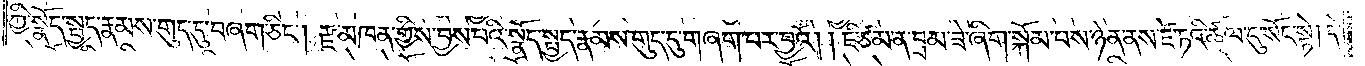ཀྱི་སྣོད་སྤྱད་རྣམས་གུད་དུ་བཞག་ཅིང༌། རྫ་མཁན་གྱིས་བྱས་པའི་སྣོད་སྤྱད་རྣམས་གུད་དུ་གཞག་པར་བྱའོ། །ཇི་ཙམ་ན་བྲམ་ཟེ་ཞིག་སྐོམ་པས་ཉེན་ནས་ཛེ་ཏའི་ཚལ་དུ་སོང་སྟེ། དེ་
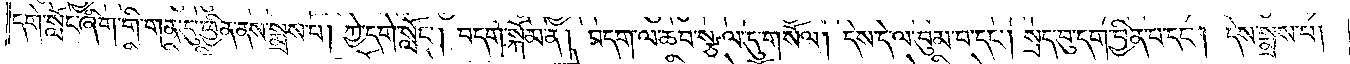དགེ་སློང་ཞིག་གི་གན་དུ་ཕྱིན་ནས་སྨྲས་པ། ཀྱེ་དགེ་སློང༌། བདག་སྐོམ་ན། བདག་ལ་ཆབ་སྩལ་དུ་གསོལ། དེས་དེ་ལ་བུམ་པ་དང༌། སྲད་བུ་དག་བྱིན་པ་དང༌། དེས་སྨྲས་པ།
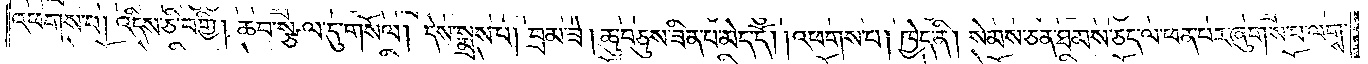འཕགས་པ། འདིས་ཅི་བགྱི། ཆབ་སྩལ་དུ་གསོལ། དེས་སྨྲས་པ། བྲམ་ཟེ། ཆུ་བཅུས་ཟིན་པ་མེད་དོ། །འཕགས་པ། ཁྱེད་ནི། སེམས་ཅན་ཐམས་ཅད་ལ་ཕན་པར་ཞུགས་པ་ལགས་
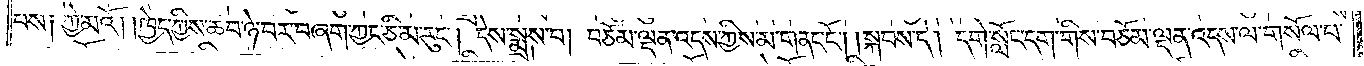པས། ཀྱེ་མའོ། །ཁྱེད་ཀྱིས་ཆབ་ཉེ་བར་བཞག་ཀྱང་ཅི་མ་རུང༌། དེས་སྨྲས་པ། བཅོམ་ལྡན་འདས་ཀྱིས་མ་གནང་ངོ༌། །སྐབས་དེ། དགེ་སློང་དག་གིས་བཅོམ་ལྡན་འདས་ལ་གསོལ་པ་
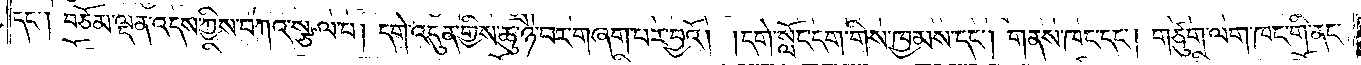དང༌། བཅོམ་ལྡན་འདས་ཀྱིས་བཀའ་སྩལ་པ། དགེ་འདུན་གྱིས་ཆུ་ཉེ་བར་གཞག་པར་བྱའོ། །དགེ་སློང་དག་གིས་ཁྱམས་དང༌། གནས་ཁང་དང༌། གཙུག་ལག་ཁང་གི་ནང་
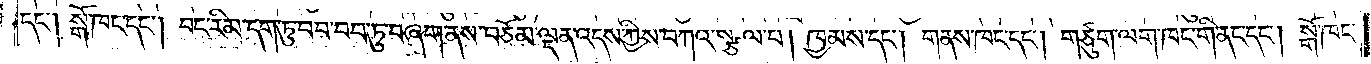དང༌། སྒོ་ཁང་དང༌། བང་རིམ་དག་ཏུ་བབ་བབ་ཏུ་བཞག་ནས་བཅོམ་ལྡན་འདས་ཀྱིས་བཀའ་སྩལ་པ། ཁྱམས་དང༌། གནས་ཁང་དང༌། གཙུག་ལག་ཁང་གི་ནང་དང༌། སྒོ་ཁང་
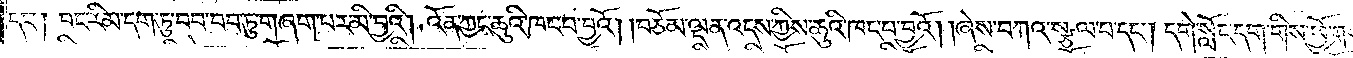དང༌། བང་རིམ་དག་ཏུ་བབ་བབ་ཏུ་གཞག་པར་མི་བྱའི། འོན་ཀྱང་ཆུའི་ཁང་པ་བྱའོ། །བཅོམ་ལྡན་འདས་ཀྱིས་ཆུའི་ཁང་པ་བྱའོ། །ཞེས་བཀའ་སྩལ་པ་དང༌། དགེ་སློང་དག་གིས་ཕྱོགས་
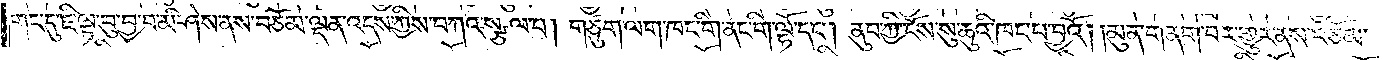གང་དུ་ཇི་ལྟ་བུ་བྱ་བ་མི་ཤེས་ནས་བཅོམ་ལྡན་འདས་ཀྱིས་བཀའ་སྩལ་པ། གཙུག་ལག་ཁང་གི་ནང་གི་ལྷོ་དང༌། ནུབ་ཀྱི་ངོས་སུ་ཆུའི་ཁང་པ་བྱའོ། །མུན་གནག་པར་གྱུར་ནས་བཅོམ་
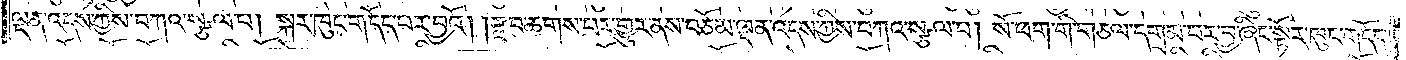ལྡན་འདས་ཀྱིས་བཀའ་སྩལ་པ། སྐར་ཁུང་གདོད་པར་བྱའོ། །རྫབ་ཆགས་པར་གྱུར་ནས་བཅོམ་ལྡན་འདས་ཀྱིས་བཀའ་སྩལ་པ། སོ་ཕག་གི་གཅལ་དགྲམ་པར་བྱ་ཞིང་སྟོར་ཁུང་གདོད་
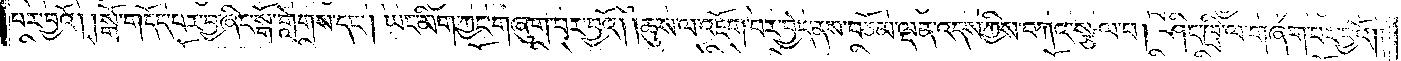བར་བྱའོ། །སྒོ་གདོད་པར་བྱ་ཞིང་སྒོ་གླེགས་དང༌། ཡང་མིག་ཀྱང་གཞུག་པར་བྱའོ། །ཆུ་ས་ལ་འཇོག་པར་བྱེད་ནས་བཅོམ་ལྡན་འདས་ཀྱིས་བཀའ་སྩལ་པ། ཤིང་ཁྲི་ལ་གཞག་པར་བྱའོ། །
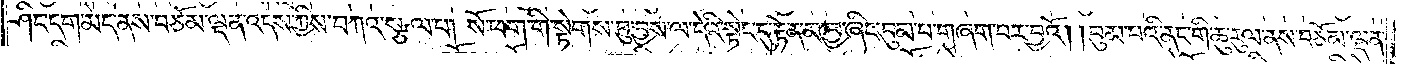ཤིང་དག་མེད་ནས་བཅོམ་ལྡན་འདས་ཀྱིས་བཀའ་སྩལ་པ། སོ་ཕག་གི་སྟེགས་བུ་བྱས་ལ་དེའི་སྟེང་དུ་རྟེན་མ་བྱ་ཞིང་བུམ་པ་གཞག་པར་བྱའོ། །བུམ་པའི་ནང་གི་ཆུ་རུལ་ནས་བཅོམ་ལྡན་
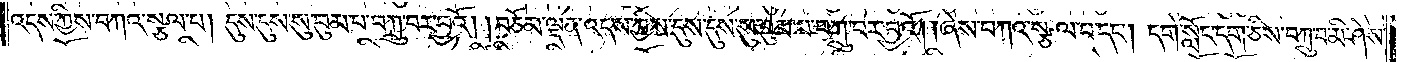འདས་ཀྱིས་བཀའ་སྩལ་པ། དུས་དུས་སུ་བུམ་པ་བཀྲུ་བར་བྱའོ། །བཅོམ་ལྡན་འདས་ཀྱིས་དུས་དུས་སུ་བུམ་པ་བཀྲུ་བར་བྱའོ། །ཞེས་བཀའ་སྩལ་པ་དང༌། དགེ་སློང་དག་ཅིས་བཀྲུ་བ་མི་ཤེས་
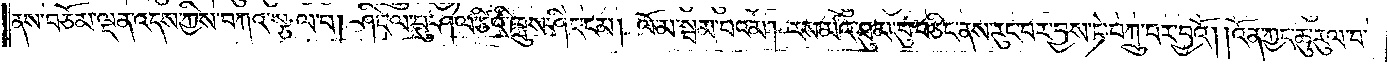ནས་བཅོམ་ལྡན་འདས་ཀྱིས་བཀའ་སྩལ་པ། ཤིང་ལ་བུ་ཤེལ་ཙིའི་ཁྲུས་ཤིང་ངམ། ལོ་མ་སྦམ་པའམ། རས་མའི་ཐུམ་བུ་བཅིང་ནས་རུང་བར་བྱས་ཏེ་བཀྲུ་བར་བྱའོ། །འོན་ཀྱང་ཆུ་རུལ་བ་
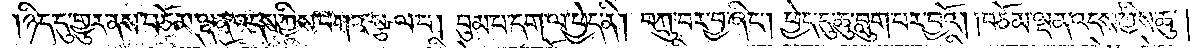ཉིད་དུ་གྱུར་ནས་བཅོམ་ལྡན་འདས་ཀྱིས་བཀའ་སྩལ་པ། བུམ་པ་དག་ལ་ཕྱེད་ནི། བཀྲུ་བར་བྱ་ཞིང༌། ཕྱེད་དུ་ཆུ་བླུག་པར་བྱའོ། །བཅོམ་ལྡན་འདས་ཀྱིས་ཆུ་
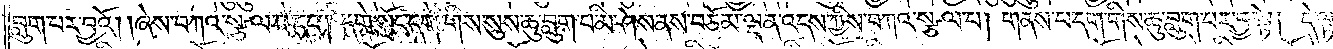བླུག་པར་བྱའོ། །ཞེས་བཀའ་སྩལ་པ་དང༌། དགེ་སློང་དག་གིས་སུས་ཆུ་བླུག་པ་མི་ཤེས་ནས་བཅོམ་ལྡན་འདས་ཀྱིས་བཀའ་སྩལ་པ། གནས་པ་དག་གིས་ཆུ་བླུག་པར་བྱ་སྟེ། དེ་ལྟ་
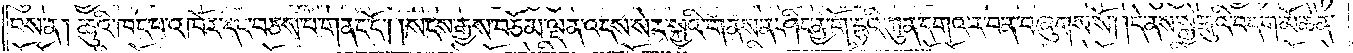བས་ན། ཆུའི་ཁང་པ་འཁོར་དང་བཅས་པ་གནང་ངོ༌། །སངས་རྒྱས་བཅོམ་ལྡན་འདས་སེར་སྐྱའི་གནས་ན་ཤིང་ནྱ་གོ་དྷའི་ཀུན་དགའ་ར་བ་ན་བཞུགས་སོ། །དེ་ནས་སྐྱེ་རྒུའི་བདག་མོ་ཆེན་
